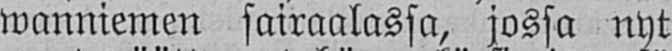wanniemen sairaalassa, jossa nyt
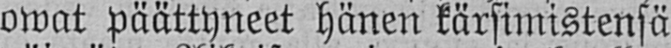owat päättyneet hänen kärsimistensä
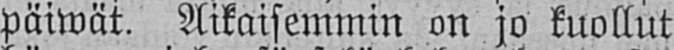päiwät. Aikaisemmin on jo kuollut
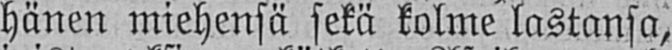hänen miehensä sekä kolme lastansa,
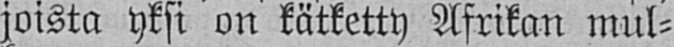joista yksi on kätketty Afrikan mul-
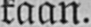kaan.
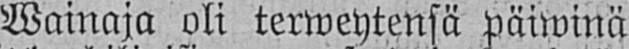Wainaja oli terweytensä päiwinä
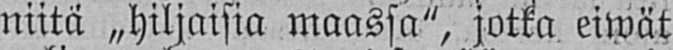niitä „hiljaisia maassa", jotka eiwät
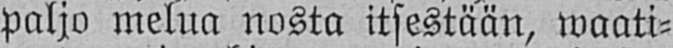paljo melua nosta itsestään, waati-
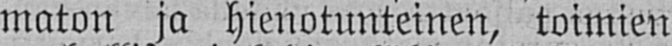maton ja hienotunteinen, toimien
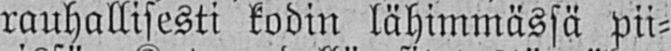rauhallisesti kodin lähimmässä pii-
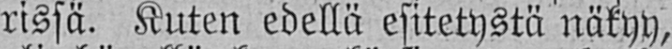rissä. Kuten edellä esitetystä näkyy,
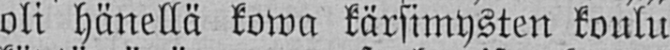oli hänellä kowa kärsimysten koulu
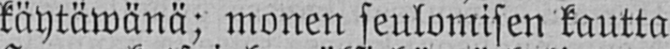käytäwänä; monen seulomisen kautta
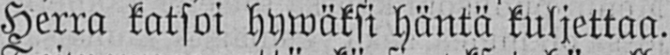Herra katsoi hywäksi häntä kuljettaa.
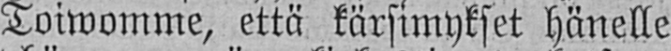Toiwomme, että kärsimykset hänelle
